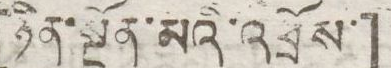[ཉིན་སྔོན་མའི་འཕྲོས་]
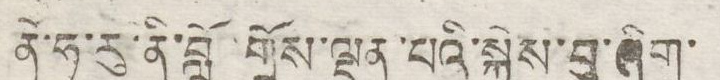ནེ་ཧ་རུ་ནི་བློ་གྲོས་ལྡན་པའི་སྐྱེས་བུ་ཞིག་
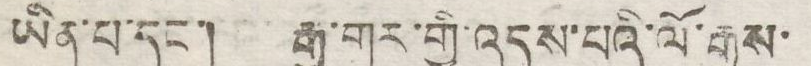ཡིན་པ་དང་། རྒྱ་གར་གྱི་འདས་པའི་ལོ་རྒྱུས་
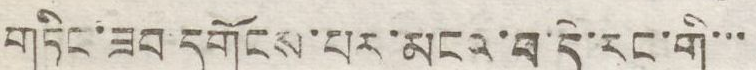གཏིང་ཟབ དགོངས་པར་མངའ་བ་དེ་རང་གི་་་
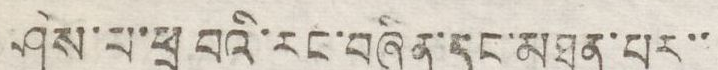ཤེས་པ་ཕྲ བའི་རང་བཞིན་དང་མཐུན་པར་་
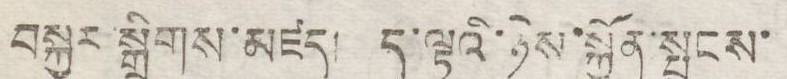བསྐྱར་སྒྲིགས་མཛད། ད་ལྟའི་ཉེས་སྐྱོན་སྤངས་
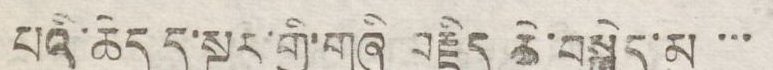པའི་ཆེད་དུ་སྔར་ཀྱི་གཞི བརྗིད ཆེ་བསྐྱེད་མ་་་
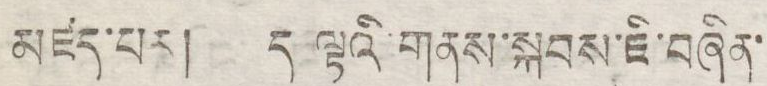མཛད་པར། ད ལྟའི་གནས་སྐབས་ཇི་བཞིན་
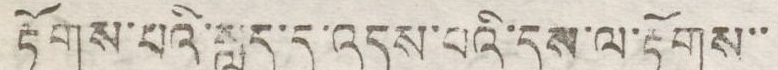རྟོགས་པའི་སླད་དུ་འདས་པའི་དུས་ལ་རྟོགས་་
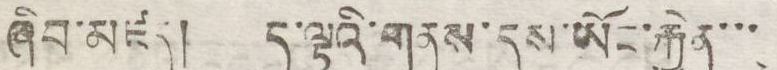ཞིབ་མཛད། ད་ལྟའི་གནས་དུས་ཡོང་རྐྱེན་་་
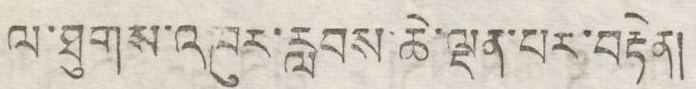ལ་ཐུགས་འཁུར་རླབས་ཆེ་ལྡན་པར་བརྟེན།
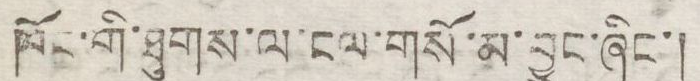ཁོང་གི་ཐུགས་ལ་ངལ་གསོ་མ་བྱུང་ཞིང་།
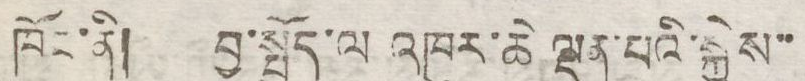ཁོང་ནི། བྱ་སྤྱོད་ལ འཁུར་ཆེ་ལྡན་པའི་སྐྱེས་་
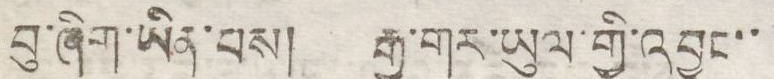བྱ་ཞིག་ཡིན་པས། རྒྱ་གར་ཡུལ་གྱི་འབྱུང་་
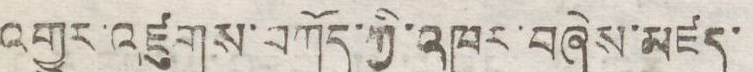འགྱུར་འཛུགས་བཀོད་ཀྱི་འཁུར་བཞེས་མཛད་
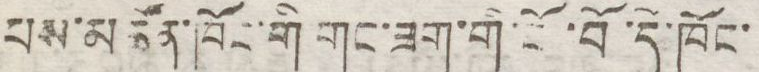པས་མཚོན་ཁོང་གི གང་ཟག་གི་ངོ་བོ་དེ་ཁོང་
